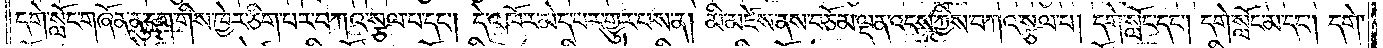དགེ་སློང་གཞོན་ནུ་དག་གིས་ཁྱེར་ཅིག་པར་བཀའ་སྩལ་པ་དང༌། དེ་འཁོར་མེད་པར་གྱུར་པས་ན། མི་མཛེས་ནས་བཅོམ་ལྡན་འདས་ཀྱིས་བཀའ་སྩལ་པ། དགེ་སློང་དང༌། དགེ་སློང་མ་དང༌། དགེ་
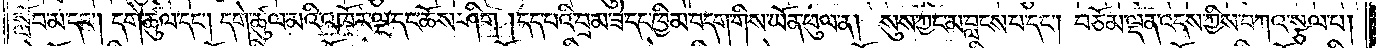སློབ་མ་དང༌། དགེ་ཚུལ་དང༌། དགེ་ཚུལ་མའི་འཁོར་ལྔ་དང་ཆོས་ཤིག །དད་པའི་བྲམ་ཟེ་དང་ཁྱིམ་བདག་གིས་ཡོན་ཕུལ་ན། སུས་ཀྱང་མ་བླངས་པ་དང༌། བཅོམ་ལྡན་འདས་ཀྱིས་བཀའ་སྩལ་པ།
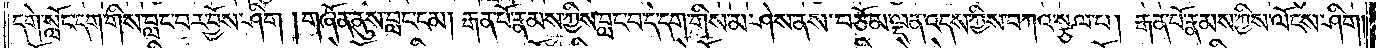དགེ་སློང་དག་གིས་བླང་བར་བྱོས་ཤིག །གཞོན་ནུས་བླང་ངམ། རྒན་པོ་རྣམས་ཀྱིས་བླང་བ་དེ་དག་གིས་མ་ཤེས་ནས་བཅོམ་ལྡན་འདས་ཀྱིས་བཀའ་སྩལ་པ། རྒན་པོ་རྣམས་ཀྱིས་ལོངས་ཤིག་
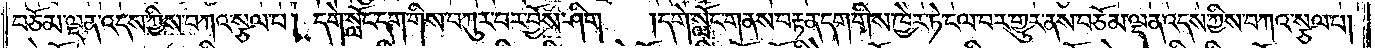བཅོམ་ལྡན་འདས་ཀྱིས་བཀའ་སྩལ་པ། དགེ་སློང་དག་གིས་བཀུར་བར་བྱོས་ཤིག །དགེ་སློང་གནས་བརྟན་དག་གིས་ཁྱེར་ཏེ་ངལ་བར་གྱུར་ནས་བཅོམ་ལྡན་འདས་ཀྱིས་བཀའ་སྩལ་པ།
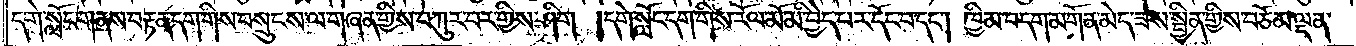དགེ་སློང་གནས་བརྟན་དག་གིས་བསྲུངས་ལ་གཞན་གྱིས་བཀུར་བར་གྱིས་ཤིག །དགེ་སློང་དག་གིས་རོལ་མོ་མི་བྱེད་པར་དོང་བ་དང༌། ཁྱིམ་བདག་མགོན་མེད་ཟས་སྦྱིན་གྱིས་བཅོམ་ལྡན་
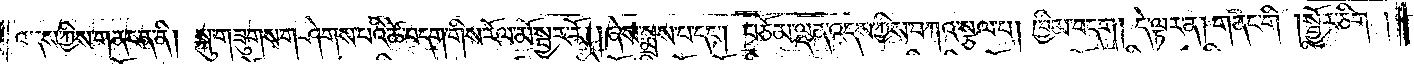འདས་ཀྱིས་གནང་ན་ནི། སྐུ་གཟུགས་གཤེགས་པའི་ཚེ་བདག་གིས་རོལ་མོ་སྦྱར་རོ། །ཞེས་སྨྲས་པ་དང༌། བཅོམ་ལྡན་འདས་ཀྱིས་བཀའ་སྩལ་པ། ཁྱིམ་བདག། དེ་ལྟར་ན། གནང་གི །སྦྱོར་ཅིག །
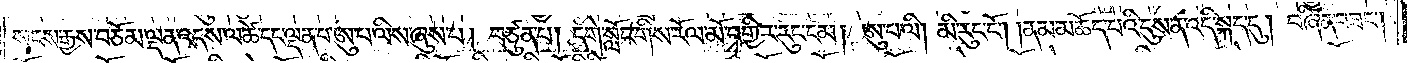སངས་རྒྱས་བཅོམ་ལྡན་འདས་ལ་ཚེ་དང་ལྡན་པ་ཨུ་པ་ལིས་ཞུས་པ། བཙུན་པ། དགེ་སློང་གིས་རོལ་མོ་བགྱིར་རུང་ངམ། ཨུ་པ་ལི། མི་རུང་ངོ༌། །ནམ་མཆོད་པའི་དུས་ན་འདི་སྐད་དུ། བཞིན་བཟང༌།
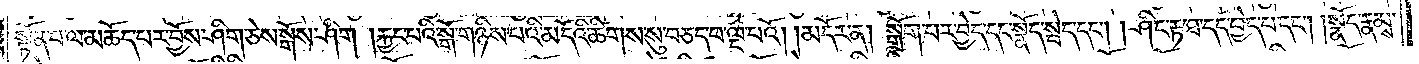སྟོན་པ་ལ་མཆོད་པར་བྱོས་ཤིག་ཅེས་སྒོས་ཤིག །རྐྱང་པའི་སྒོ་གཉིས་པའི་མདོའི་ཚིགས་སུ་བཅད་པ་ལྔ་པའོ།    །མདོར་ན། སྒྲོག་པར་བྱེད་དང་སྣོད་སྦེད་དང༌། ཤིང་རྟ་ཐ་དད་པ་བྱེད་པ་དང༌། སྣོད་རྣམས་
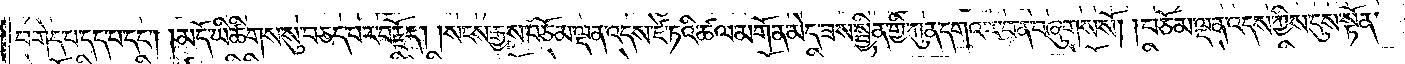བགེད་པ་དད་པ་དང༌། མདོ་ཡི་ཚིགས་སུ་བཅད་པར་བརྗོད། །སངས་རྒྱས་བཅོམ་ལྡན་འདས་ཛེ་ཏའི་ཚལ་མགོན་མེད་ཟས་སྦྱིན་གྱི་ཀུན་དགའ་ར་བ་ན་བཞུགས་སོ། །བཅོམ་ལྡན་འདས་ཀྱིས་དུས་སྟོན་
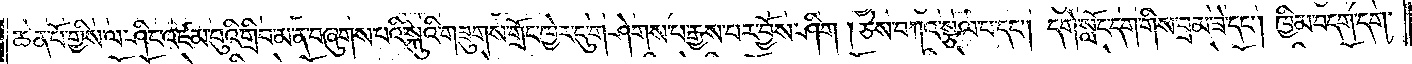ཆེན་པོ་གྱིས་ལ་ཤིང་འཛམ་བུའི་གྲིབ་མ་ན་བཞུགས་པའི་སྐུའི་གཟུགས་གྲོང་ཁྱེར་དུ་གཤེགས་པ་རྒྱས་པར་བྱོས་ཤིག །ཅེས་བཀའ་སྩལ་པ་དང༌། དགེ་སློང་དག་གིས་བྲམ་ཟེ་དང༌། ཁྱིམ་བདག་དག་
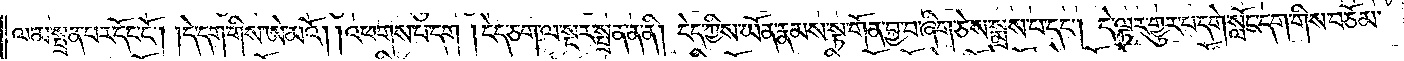ལ་མ་སྦྲན་པར་དོང་ངོ༌། །དེ་དག་གིས་ཨེ་མའོ། །འཕགས་པ་དག །ངེད་ཅག་ལ་སྔར་སྦྲན་ན་ནི། ངེད་ཀྱིས་ཡོན་རྣམས་སྟ་གོན་བྱ་བ་ཞིག་ཅེས་སྨྲས་པ་དང༌། དེ་ལྟར་གྱུར་པ་དགེ་སློང་དག་གིས་བཅོམ་
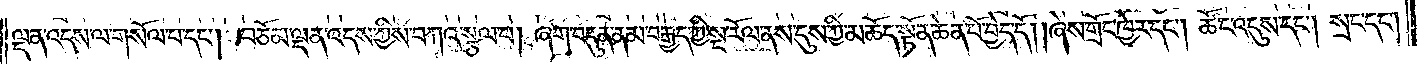ལྡན་འདས་ལ་གསོལ་པ་དང༌། བཅོམ་ལྡན་འདས་ཀྱིས་བཀའ་སྩལ་པ། ཞག་བདུན་ནམ་བརྒྱད་ཀྱི་སྔ་རོལ་ནས་དུས་ཀྱི་མཆོད་སྟོན་ཆེན་པོ་བྱེད་དོ། །ཞེས་གྲོང་ཁྱེར་དང༌། ཚོང་འདུས་དང༌། སྲང་དང༌།
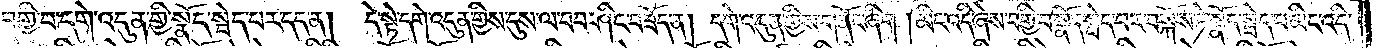བགྱི་བ་དགེ་འདུན་གྱི་སྣོད་སྦེད་པར་དད་ན། དེ་སྟེ་དགེ་འདུན་གྱིས་དུས་ལ་བབ་ཤིང་བཟོད་ན། དགེ་འདུན་གྱིས་གནོང་ཞིག །མིང་འདི་ཞེས་བགྱི་བ་སྣོད་སྦེད་པར་བསྐོས་ཏེ་སྣོད་སྦེད་པ་མིང་འདི་
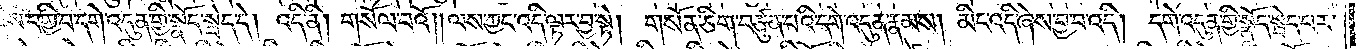ཞེས་བགྱི་བ་དགེ་འདུན་གྱི་སྣོད་སྦེད་དེ། འདི་ནི། གསོལ་བའོ། །ལས་ཀྱང་འདི་ལྟར་བྱ་སྟེ། གསོན་ཅིག་བཙུན་པའི་དགེ་འདུན་རྣམས། མིང་འདི་ཞེས་བྱ་བ་འདི། དགེ་འདུན་གྱི་སྣོད་སྦེད་པར་
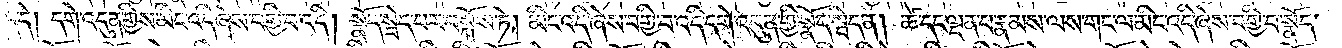དད་དེ། དགེ་འདུན་གྱིས་མིང་འདི་ཞེས་བགྱི་བ་འདི། སྣོད་སྦེད་པར་བསྐོས་ཏེ། མིང་འདི་ཞེས་བགྱི་བ་འདི་དགེ་འདུན་གྱི་སྣོད་སྦེད་ན། ཚེ་དང་ལྡན་པ་རྣམས་ལས་གང་ལ་མིང་འདི་ཞེས་བགྱི་བ་སྣོད་
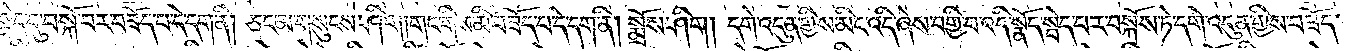སྦེད་དུ་བསྐོ་བར་བཟོད་པ་དེ་དག་ནི། ཅང་མ་གསུངས་ཤིག །གང་གིས་མི་བཟོད་པ་དེ་དག་ནི། སྨྲོས་ཤིག། དགེ་འདུན་གྱིས་མིང་འདི་ཞེས་བགྱི་བ་འདི་སྣོད་སྦེད་པར་བསྐོས་ཏེ་དགེ་འདུན་གྱིས་བཟོད་
